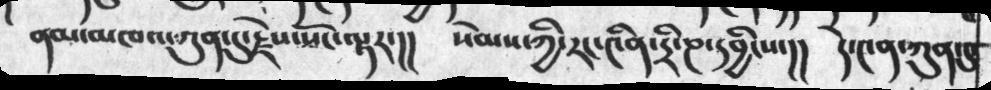ནམ་མཁའ་ཀུན་དུ་རྗེས་སོང་ལྟར་།།  སེམས་ཀྱི་རང་༤ིན་དྲི་ཎ་དབྱིངས་།།  དེ་༤ན་ཀུན་དུ་
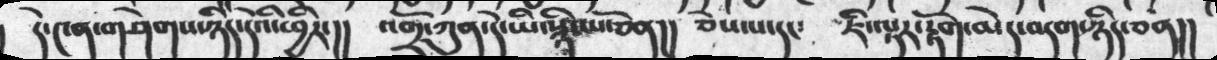དེ་༤ན་གཤེགས་ཉིད་དེའི་ཕྱིར་།།   འགྲོ་ཀུན་དེ་ཡི་སྙིང་པོ་ཅན།།  ཅེས་པ་དང༴  ཇི་ལྟར་རྟོག་མེད་བདག་ཉིད་ཅན།།
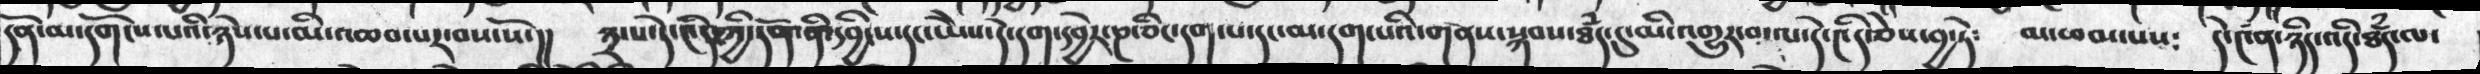དོན་མ་དགོངས་པའི་ཉེས་པ་མི་འཆར་པར་བས་སོ་།།  ༣་པ་དེ་༤ིན་ཀྱི་དོན་ནི་དབྱིངས་དང་ཡེེས་དེ་དག་་དབྱེར་ཎ་ཅིང་དག་པ་དང་མ་དག་པའི་གནས་སྐབས་ཐཾད་དུ་མི་འགྱུར་བ་ལ་དེ་༤ིན་ཅེས་བྱ་ཏེ༴  མ་ཕམ་པས༴  དེ་༤ན་ཉིད་འདི་ཐཾད་ལ་
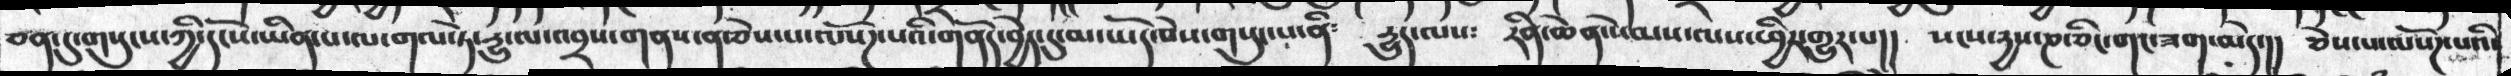ཅན་དུ་གསུངས་ཀྱི་དངོས་ཡིན་པ་ལ་གལ་ཏེ་རྱུ་ལ་འབྲས་གནས་ན་ཅེས་པ་ལསོཌ་པའི་གནོད་བྱེད་དུ་མ་ཡོད་ཅེས་གསུང་པ་ནི༴  དྱུད་ལས༴ རིན་ཆེན་སེམས་ལས་ཕྱིར་གྱུར་པ།། སངས་དྱས་ཎ་ཅིང་གང་ཟག་མེད་།། ཅེས་པ་ལསོགས་པའི་
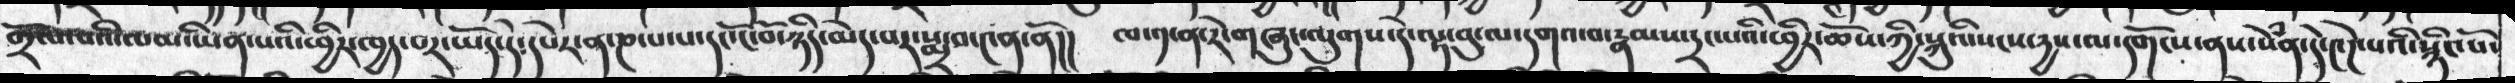གྲོལ་པའི་ལམ་ཡིན་པའི་ཕྱིར་ཁྱད་པར་ཡོད་དེ་དཔེར་ན་ཎ་པ་པ་དང་ངོ་བོ་ཉིད་མེད་པར་སྨྲ་བ་༤ན་ནོ།།  ཁ་༡་ན་རེ་གཞུང་ལུགས་དེ་ལྟ་བུ་ལ་དགའ་བ་རྣམས་དྲང་པའི་ཕྱིར་ཆོས་ཀྱི་སྐུའི་སངས་དྱས་ལ་དགོངས་ནས་སེཾན་དེ་༤ེཌ་པའི་སྙིང་པོ་
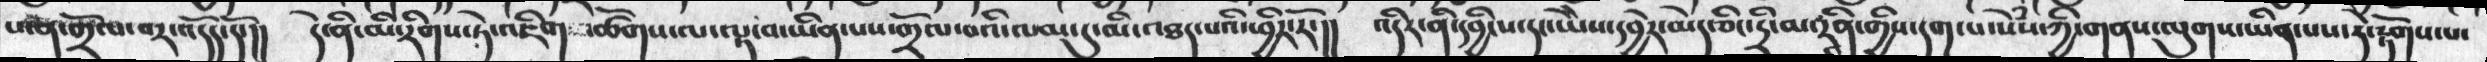པ་ན་གྲོལ་བར་འདོད་དོ་།། དེ་ནི་མི་རིགས་ཏེ་འཇིག་ཚོགས་ལ་ལྟ་བ་ཡིན་པས་གྲོལ་བའི་ལམ་དུ་མི་འཐད་པའི་ཕྱིར་རོ་།། འདིར་ནི་དབྱིངས་དང་ཡཻས་དབྱེར་མེད་ཅིང་དྲི་མ་རིན་གྱིས་དག་པ་སེཾས་ཀྱི་གནས་ལུགས་ཡིན་པས་དེ་རྟོགས་པ་
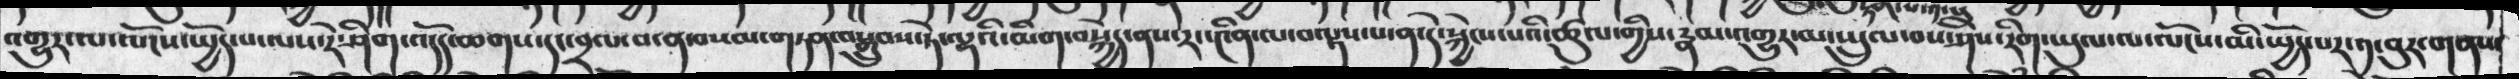འགྱུར་ལ་ལོངས་སྤྱོད་པ་ལས་རེ་ཤིག་འདོད་ཆགས་དང་བྲལ་བ་ན་བསམ་གཏན་བསྒྲུབས་ཏེ་ལྷའི་མིག་བསྐྱེད་ནས་རང་༤ིན་ལ་བལྟས་པ་ན་དེ་སྐྱེངས་པའི་ཚུལ་གྱིས་རྣམ་འགྱུར་མ་ཡུལ་བས་ཤིས་རིག་ཡུལ་ལ་ལོངས་མི་སྤྱོད་པར་༡་བུར་གནས་།
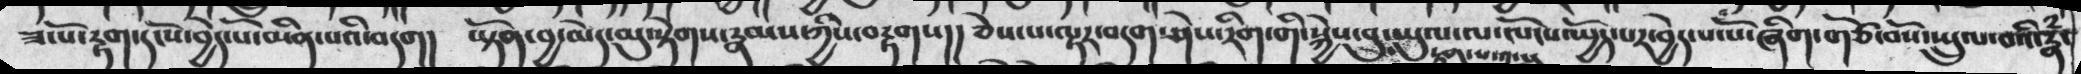ཟ་པོ་རྟག་དངོས་བྱེད་པོ་མིན་པའི་བདག།  ཡྟོན་བྱ་མེད་མུ་སྟེགས་རྣམས་ཀྱིས་བརྟགས།།  ཅེས་པ་ལྟར་བདག་ཤེས་རིག་གི་སྐྱེས་བུ་ཡུལ་ལ་ལོངས་སྤྱོད་པར་བྱེད་པ་པོ་ཞིག་གཙོ་བོས་ཡུལ་བའི་རྣཾ་
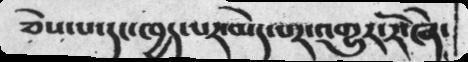ཅེས་པ་དང་ཁྱད་པར་མེད་པར་འགྱུར་རོ་ཞེ་
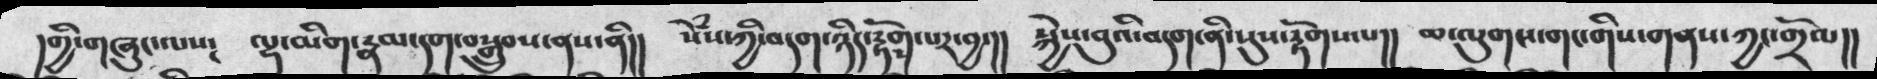།གྱི་གཞུང་ལས༴   ལྷ་མིག་རྣམ་དག་བསྒྲུབས་ནས་ནི།།  སེཾས་ཀྱི་བདག་ཉིད་རྟོག་པར་བྱ་།།  སྐྱེས་བུའི་བདག་ནི་དུས་རྟོགས་པ།།  ཆ་ལུགས་གང་གིས་གནས་ཀྱང་གྲོལ།།
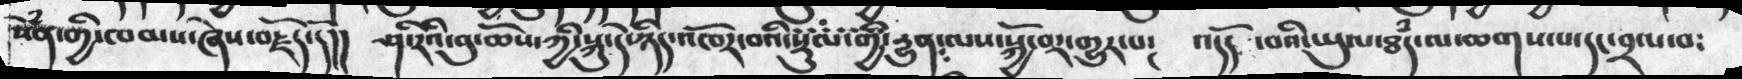སེཾན་གྱི་ཁམས་ཞེས་བརྗོད་དོ།།  ཤ་རིའི་བུ་ཆོས་ཀྱི་སྐུ་དེ་ཉིད་འཁོར་བའི་སྟུལ་གྱི་རྱུན་ལས་སྐྱོ་བར་གྱུར་པ༴ འདོད ་བའི་ཡུལ་ཐཾད་ལ་ཆགས་པ་དང་བྲལ་བ༴
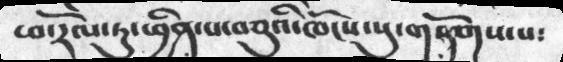ཕ་རོལ་ཏུ་ཕྱིན་པ་བཅུའི་ཁོངས་སུ་གཏོགས་པ༴
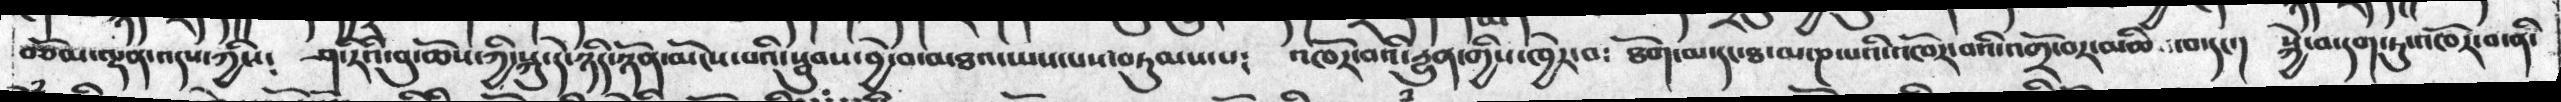བཅོམ་ལྡན་འདས་ཀྱིས༴  ཤ་རིའི་བུ་ཆོས་ཀྱི་སྐུ་དེ་ཉིད་ཉོན་མོངས་པའི་སྦུབས་བྱེ་བ་མཐའ་ཡས་པས་བཏུམས་པ༴  འཁོར་བའི་རྱུན་གྱིས་ཁྱེར་བ༴ ཐོག་མ་དང་ཐ་མ་ཎ་པའི་འཁོར་བའི་འགྲོ་བར་མཆི་བ་དང་།  སྐྱེ་བ་དག་ཏུ་འཁོར་བ་ནི་
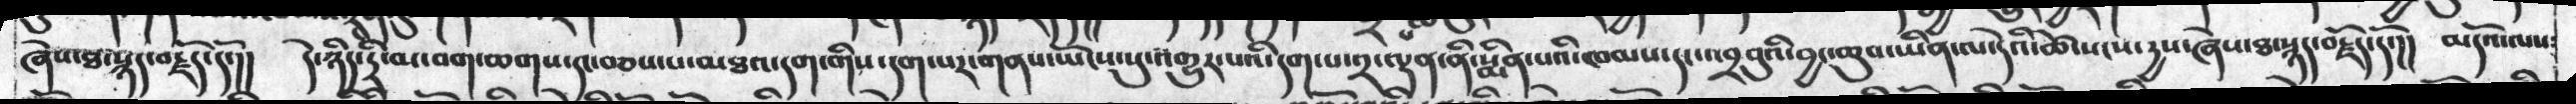ཞེས་ཐ་སྙད་བརྗོད་དོ་།།  དེ་ཉིད་དྲི་མ་བག་ཆགས་དང་བཅས་པ་མཐའ་དག་གིས་དག་པར་གནས་ཡོངས་སུ་འགྱུར་པའི་དག་པ་༢་ལྡན་ནི་སྨིན་པའི་ཁམས་དང་འབྲབུའི་བྱང་ཆུབ་ཡིན་ལ་དེའི་ཚེ་སངས་རྱས་ཞེས་ཐ་སྙད་བརྗོད་དོ་།། མདོའ་ལས༴
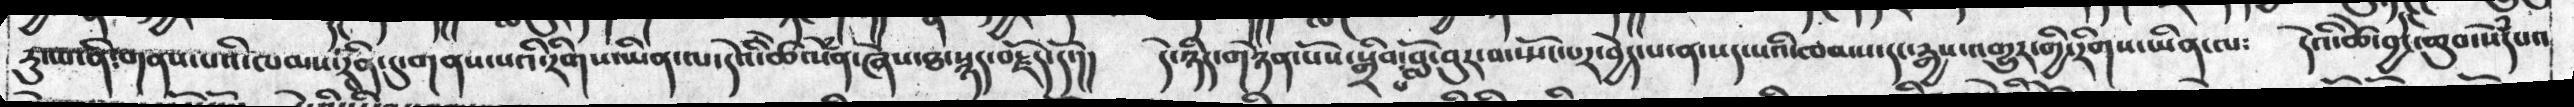རུ་ཡ་ནི་གནས་པའི་ལམས་རིན་དུ་གནས་པའི་རིགས་ཡིན་ལ་དེའི་ཚེ་སེཾན་ཞེས་ཐ་སྙད་བརྗོད་དོ་།།  དེ་ཉིད་གཉེན་པོས་སྒྲིབ་བློ་བུར་བ་སྤོངས་པར་བྱེད་པ་ན་སད་པའི་ཁམས་དང་རྒྱས་འགྱུར་གྱི་རིགས་ཡིན་ལ༴  དེའི་ཚེ་བྱང་ཆུབ་སེཾདཔའ
